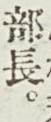部長。
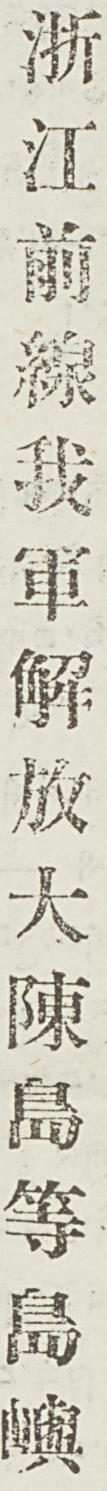浙江前線我軍解放大陳島等島嶼
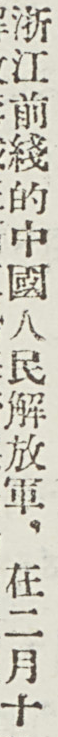浙江前綫的中國人民解放軍，在二月十
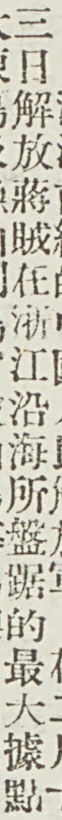三日解放蔣賊在浙江沿海所盤踞的最大據點
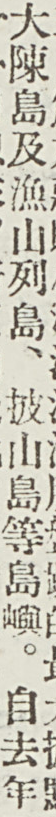大陳島及漁山列島、披山島等島嶼。自去年
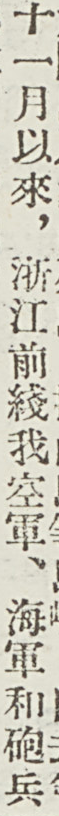十一月以來，浙江前綫我空軍、海軍和砲兵
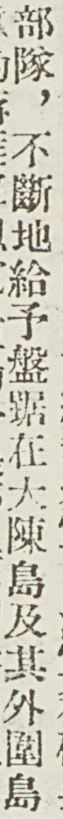部隊，不斷地給予盤踞在大陳島及其外圍島
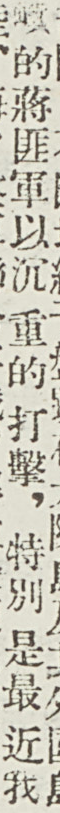嶼的蔣匪軍以沉重的 打擊，特別 是最近我
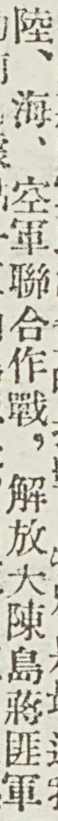陸、海、空軍聯合作戰，解放大陳島蔣匪軍
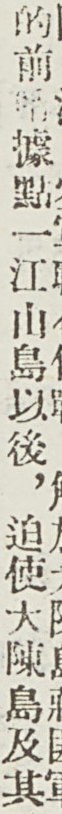的前哨據點一江山島以後，迫使大陳島及其
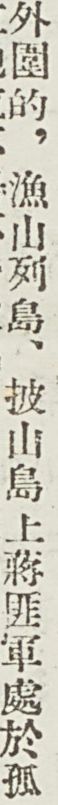外圍的，漁山列島、披山島上蔣匪軍處於孤
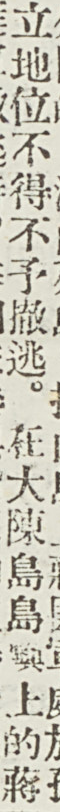立地位不得不予撤逃。在大陳島島嶼上的蔣
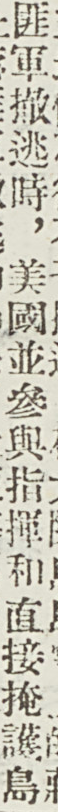匪軍撤逃時，美國並參與指揮和直接掩護島
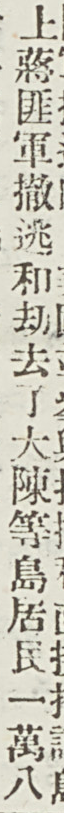上蔣匪軍撤逃和劫去了大陳等島居民一萬八
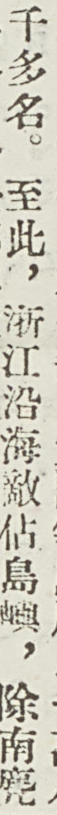千多名。至此，浙江沿海敵佔島嶼，除南麂
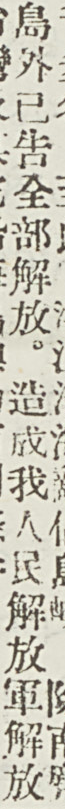島外已告全部解放。造成我人民解放軍解放
